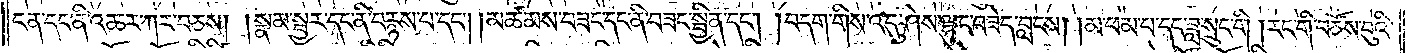ངན་དང་ནི་འཆར་ཀར་བཅས། །སྣམ་སྦྱར་དང་ནི་བརྙས་པ་དང༌། །མཚམས་བཟང་དང་ནི་བཟང་སྦྱིན་དང༌། །བདག་གིས་འདུ་ཤེས་ལྷུང་བཟེད་བླངས། །མ་ཕམ་པ་དང་ཟླ་སྲུང་གི །རང་གི་བཙོས་བུའི་
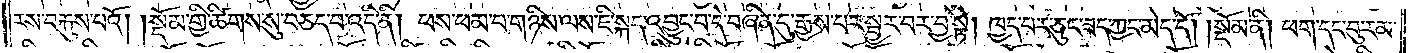རས་བརྐུས་པའོ། །སྡོམ་གྱི་ཚིགས་སུ་བཅད་པ་འདི་ནི། ཕས་ཕམ་པ་གཉིས་ལས་ཇི་སྐད་འབྱུང་བ་དེ་བཞིན་དུ་རྒྱས་པར་སྦྱར་བར་བྱ་སྟེ། ཁྱད་པར་ཅུང་ཟད་ཀྱང་མེད་དོ།    །སྡོམ་ནི། ཕག་དང་བུ་རམ་
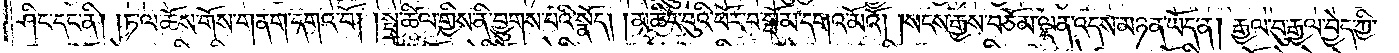ཤིང་དང་ནི། །ཏ་ལ་ཆོས་གོས་གནག་དགའ་བོ། །སྤྲ་ཚིལ་གྱིས་ནི་བྱུགས་པའི་སྣོད། །མཆིང་བུའི་ཕོར་བ་སྦོམ་དགའ་མོའོ། །སངས་རྒྱས་བཅོམ་ལྡན་འདས་མཉན་ཡོད་ན། རྒྱལ་བུ་རྒྱལ་བྱེད་ཀྱི་
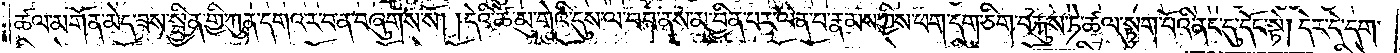ཚལ་མགོན་མེད་ཟས་སྦྱིན་གྱི་ཀུན་དགའ་ར་བ་ན་བཞུགས་སོ། །དེའི་ཚེ་མུ་གེའི་དུས་ལ་བབ་ནས་མ་བྱིན་པར་ལེན་པ་རྣམས་ཀྱིས་ཕག་དག་ཅིག་བརྐུས་ཏེ་ཚལ་སྟུག་པོའི་ནང་དུ་དོང་སྟེ། དེར་དེ་དག་
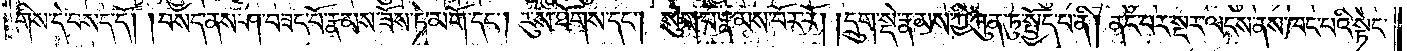གིས་དེ་བསད་དོ། །བསད་ནས་ཤ་བཟང་པོ་རྣམས་ཟོས་ཏེ་མགོ་དང༌། རུས་ཐོགས་དང༌། སུག་པ་རྣམས་བོར་རོ། །དྲུག་སྡེ་རྣམས་ཀྱི་ཀུན་ཏུ་སྤྱོད་པ་ནི། ནང་པར་སྔར་ལངས་ནས་ཁང་པའི་སྟེང་
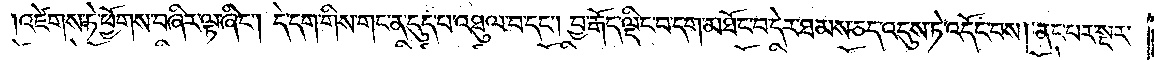འཛེགས་ཏེ་ཕྱོགས་བཞིར་ལྟ་ཞིང༌། དེ་དག་གིས་གང་ན་དུད་པ་འཐུལ་བ་དང༌། བྱ་རྒོད་ལྡིང་བ་དག་མཐོང་བ་དེར་ཐམས་ཅད་འདུས་ཏེ་འདོང་བས། ནང་པར་སྔར་
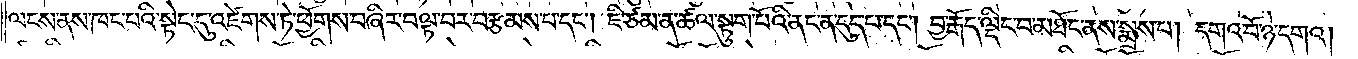ལངས་ནས་ཁང་པའི་སྟེང་དུ་འཛེགས་ཏེ་ཕྱོགས་བཞིར་བལྟ་བར་བརྩམས་པ་དང༌། ཇི་ཙམ་ན་ཚལ་སྟུག་པོའི་ནང་ན་དུད་པ་དང༌། བྱ་རྒོད་ལྡིང་བ་མཐོང་ནས་སྨྲས་པ། དགའ་བོ་ཉེ་དགའ།
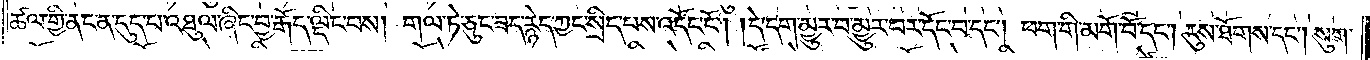ཚལ་གྱི་ནང་ན་དུད་པ་འཐུལ་ཞིང་བྱ་རྒོད་ལྡིང་བས། གལ་ཏེ་ཅུང་ཟད་རྙེད་ཀྱང་སྲིད་པས་འདོང་ངོ༌། །དེ་དག་མྱུར་བ་མྱུར་བར་དོང་བ་དང༌། ཕག་གི་མགོ་བོ་དང༌། རུས་ཐོགས་དང༌། སུག་
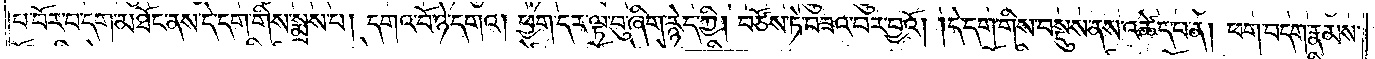པ་བོར་བ་དག་མཐོང་ནས་དེ་དག་གིས་སྨྲས་པ། དགའ་བོ་ཉེ་དགའ། ཕྱག་དར་ལྟ་བུ་ཞིག་རྙེད་ཀྱི། བཙོས་ཏེ་བཟའ་བར་བྱའོ། །དེ་དག་གིས་བསྡུས་ནས་འཚེད་པ་ན། ཕག་བདག་རྣམས་
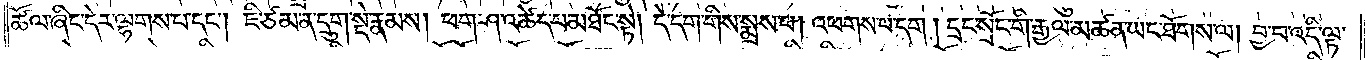ཚོལ་ཞིང་དེར་ལྷགས་པ་དང༌། ཇི་ཙམ་ན་དྲུག་སྡེ་རྣམས། ཕག་ཤ་འཚེད་པ་མཐོང་སྟེ། དེ་དག་གིས་སྨྲས་པ། འཕགས་པ་དག །དྲང་སྲོང་གི་རྒྱལ་མཚན་ཡང་ཐོགས་ལ། བྱ་བ་འདི་ལྟ་
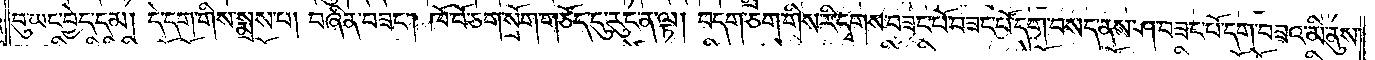བུ་ཡང་བྱེད་དམ། དེ་དག་གིས་སྨྲས་པ། བཞིན་བཟང༌། ཁོ་བོ་ཅག་སྲོག་གཅོད་དུ་རུང་ན་ལྟ། བདག་ཅག་གིས་རི་དྭགས་བཟང་པོ་བཟང་པོ་དག་བསད་ནས་ཤ་བཟང་པོ་དག་བཟའ་མི་ནུས་
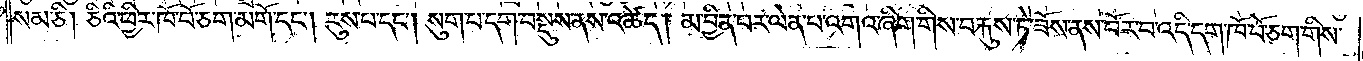སམ་ཅི། ཅིའི་ཕྱིར་ཁོ་བོ་ཅག་མགོ་དང༌། རུས་པ་དང༌། སུག་པ་དག་བསྡུས་ནས་འཚོད། མ་བྱིན་པར་ལེན་པ་འགའ་ཞིག་གིས་བརྐུས་ཏེ་ཟོས་ནས་བོར་བ་འདི་དག་ཁོ་བོ་ཅག་གིས་
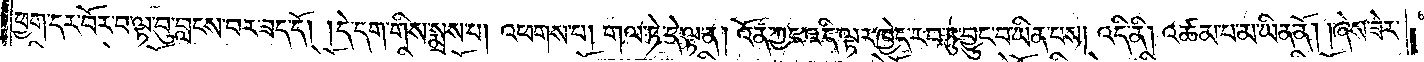ཕྱག་དར་བོར་བ་ལྟ་བུ་བླངས་བར་ཟད་དོ། །དེ་དག་གིས་སྨྲས་པ། འཕགས་པ། གལ་ཏེ་དེ་ལྟ་ན། འོན་ཀྱང་འདི་ལྟར་ཁྱེད་རབ་ཏུ་བྱུང་བ་ཡིན་པས། འདི་ནི། འཚམ་པ་མ་ཡིན་ནོ། །ཞེས་ཟེར་
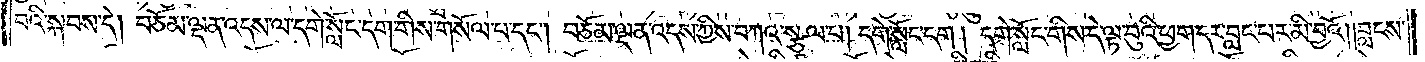བའི་སྐབས་དེ། བཅོམ་ལྡན་འདས་ལ་དགེ་སློང་དག་གིས་གསོལ་པ་དང༌། བཅོམ་ལྡན་འདས་ཀྱིས་བཀའ་སྩལ་པ། དགེ་སློང་དག། དགེ་སློང་གིས་དེ་ལྟ་བུའི་ཕྱག་དར་བླང་པར་མི་བྱའོ། །བླངས་
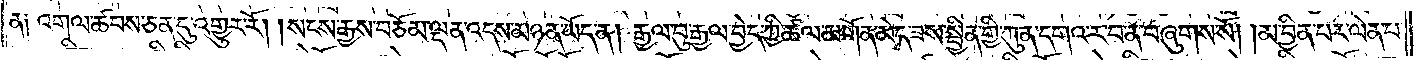ན༑ འགལ་ཚབས་ཅན་དུ་འགྱུར་རོ། །སངས་རྒྱས་བཅོམ་ལྡན་འདས་མཉན་ཡོད་ན། རྒྱལ་བུ་རྒྱལ་བྱེད་ཀྱི་ཚལ་མགོན་མེད་ཟས་སྦྱིན་གྱི་ཀུན་དགའ་ར་བ་ན་བཞུགས་སོ། །མ་བྱིན་པར་ལེན་པ་
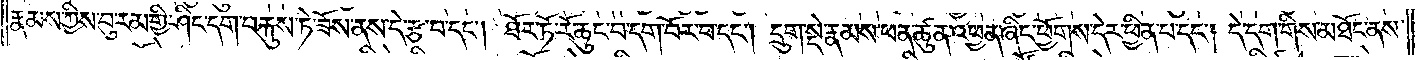རྣམས་ཀྱིས་བུ་རམ་གྱི་ཤིང་དག་བརྐུས་ཏེ་ཟོས་ནས་དེ་རྩ་བ་དང༌། ཐོར་ཏོ་རོ་ཆུང་བ་དག་བོར་བ་དང༌། དྲུག་སྡེ་རྣམས་ཕན་ཚུན་འཕྱན་ཞིང་ཕྱོགས་དེར་ཕྱིན་པ་དང༌། དེ་དག་གིས་མཐོང་ནས་
